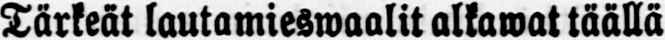Tärkeät lautamieswaalit alkawat täällä
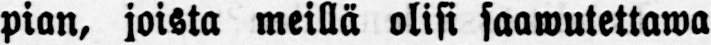pian, joista meillä olisi saawutettawa
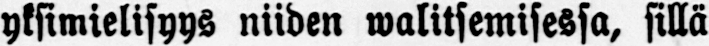yksimielisyys niiden walitsemisessa, sillä
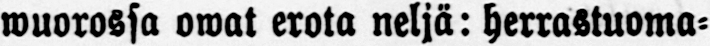wuorossa owat erota neljä: herrastuoma-
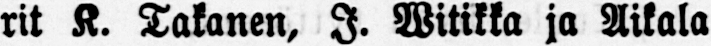rit K. Takanen, I. Witikka ja Aikala
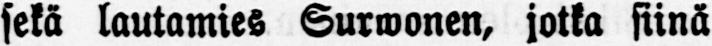sekä lautamies Surwonen, jotka siinä
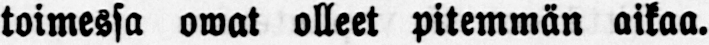toimessa owat olleet pitemmän aikaa.
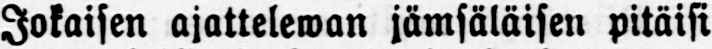Jokaisen ajattelewan jämsäläisen pitäisi
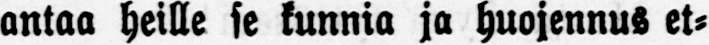antaa heille se kunnia ja huojennus et-
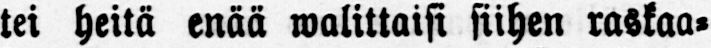tei heitä enää walittaisi siihen raskaa-
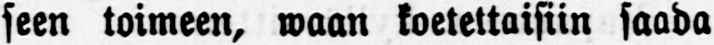seen toimeen, waan koetettaisiin saada
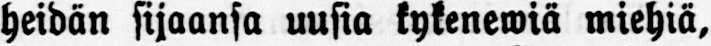heidän sijaansa uusia kykenewiä miehiä,
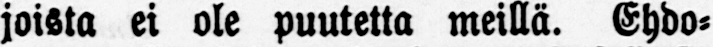joista ei ole puutetta meillä. Ehdo-
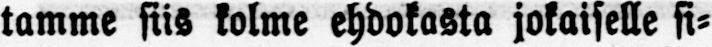tamme siis kolme ehdokasta jokaiselle si-
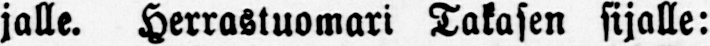jalle. Herrastuomari Takasen sijalle:
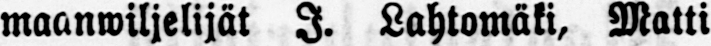maanwiljelijät J. Lahtomäki, Matti
